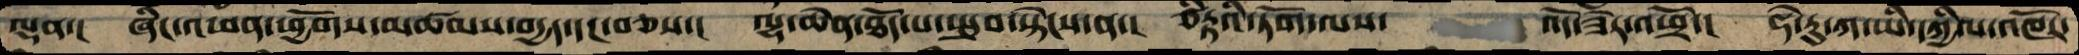ལྡན་།  ཞིང་འཕན་ཕྱོགས་མཚམས་བདྱད་དང་བཅས་།  ལྷ་ཆེན་ཐོད་པ་སྤུབ་སྟེངས་ན་།  ཙིཏྟའི་ཏོག་ལས་   འོད་ཟེར་འཕྲོ་།  ཧེ་རུ་ཀ་ཡི་དཀྱིལ་འཁོར་
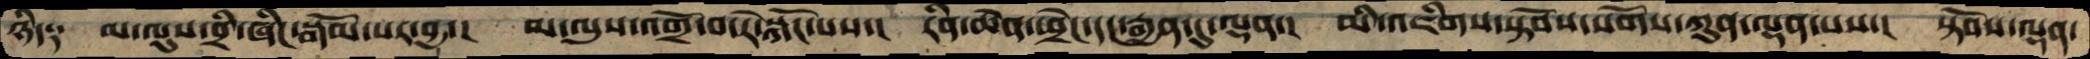ཉིད༑  མ་ལུས་བྲི་ཞིང་སྒོམ་པར་བྱ་།  མ་ལུས་འགྲོ་བ་རེ་སྐོང་པས་།  རིན་ཆེན་ཕྲེང་དང་རྒྱན་དུ་ལྡན་།  མི་འཇིགས་སྟོབས་སོགས་ཀུན་ལྡན་པས་།  སྟོབས་ལྡན་
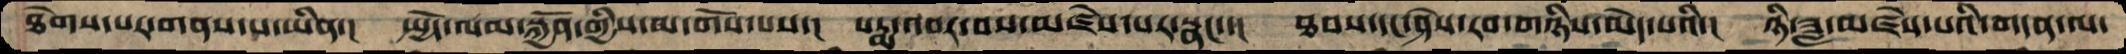ཐེགས་པར་གནས་པ་ཡིན་།  སྤྱོད་ལམ་སྐྱོན་གྱིས་མ་གོས་པས་།  པདྨ་འབར་བས་མཛེས་པར་སྣང་་།   ཐབས་དང་ཤེས་རབ་གཉིས་མེད་པའི་།  ཉི་ཟླ་མཛེས་པའི་གདན་ལ་
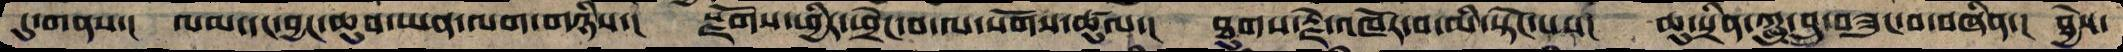དུ་གནས་།  ལམ་དང་བྱང་ཆུབ་ཡན་ལག་གཉིས་།   སྫོགས་ཕྱིར་ཕྲེང་བ་ལ་སོགས་ཚུལ་།  ཐུགས་རྗེ་འཁོར་བ་མི་སྟོང་པས།   ཆུ་སྲིན་ཀླུ་བྲུ་བཟུང་བ་བཞིན་།  ཐྱེས་
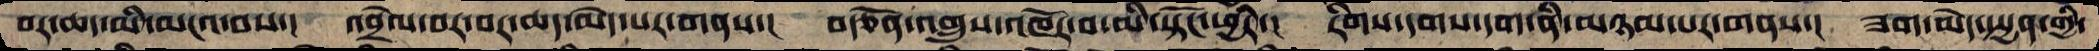བར་ཆད་མི་མངའ་བས་།  འབྲེལ་བར་བར་ཆད་མེད་པར་གནས་།   བརྩོན་འགྲུས་འཁོར་བ་མི་སྟོང་ཕྱིར་།  རིགས་དགས་དག་ནི་མཉམ་པར་གནས་།  ཟག་མེད་སྤྱན་གྱི་
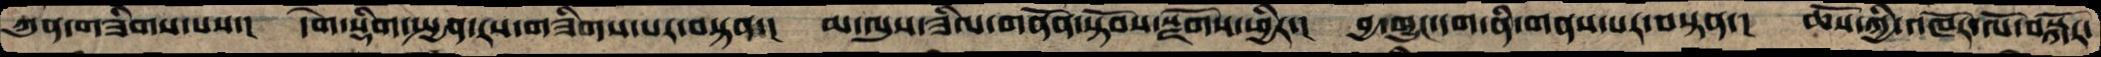ཀུན་གཟིགས་པས་།  དགེ་སྡིག་སྤྱན་རས་གཟིགས་པར་བསྟན་།   མ་ལུས་ཟིལ་གནོན་སྟོབས་སྫོགས་ཕྱིར་།  བྱ་ཁྱུང་དག་ནི་གནས་པར་བསྟན་།  ཆོས་ཀྱི་འཁོར་ལོ་བསྐོར་
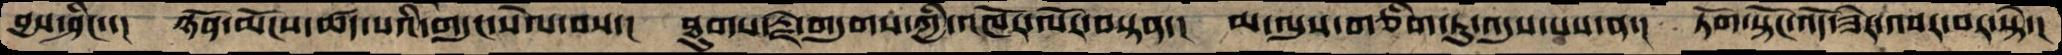བྱས་ཤིང་་།   ཉོན་མོངས་ཚད་པའི་གདུང་སེལ་བས་།  ཐུགས་རྗེ་གདུགས་ཀྱི་འཁོར་ལོར་བསྟན་།  མ་ལུས་གཅིག་ཏུ་འདུས་པས་ན་།  ཏོག་སྟོང་འོད་ཟེར་འབར་བར་སྟེ་།
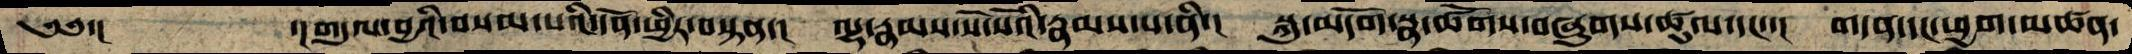༄༅་།      ་།གདུལ་བྱའི་བསམ་པའི་དོན་ཕྱིར་བསྟན་།  ལྷ་རྣམས་སོ་སོའི་རྣམས་པ་ནི་།   སྐུ་མདོག་སྣ་ཚོགས་བཞུགས་ཚུལ་དང་་།   གདན་དང་ཕྱག་མཚན་
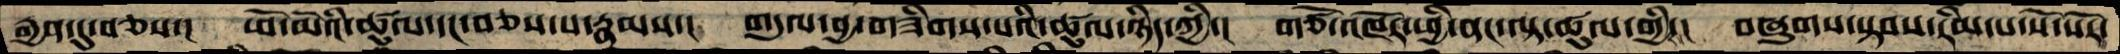རྒྱན་དུ་བཅས་།  ཕོ་མོའི་ཚུལ་དང་བཅས་པ་རྣམས་།   གདུལ་བྱ་གཟིགས་པའི་ཚུལ་ཉིད་ཀྱི་།  གཙོ་འཁོར་ཕྱི་ནང་ལྟ་ཚུལ་གྱི་།  བཞུགས་སྟབས་རིམ་པ་སོ་སོར་
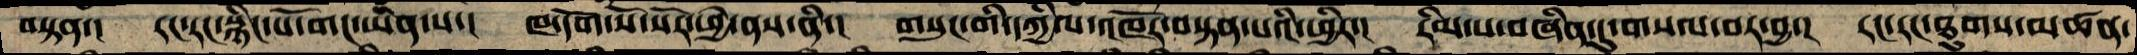བསྟན་།   རང་རང་སྙིང་པོ་གང་ཡིན་པ་།   ཁ་དོག་སོ་སོར་ཕྱེ་ནས་ནི་།  གསུང་གི་དཀྱིལ་འཁོར་བསྟན་པའི་ཕྱིར་།  རིམ་པ་བཞིན་དུ་གསལ་བར་བྱ་།  རང་རང་ཐུགས་མཚན་
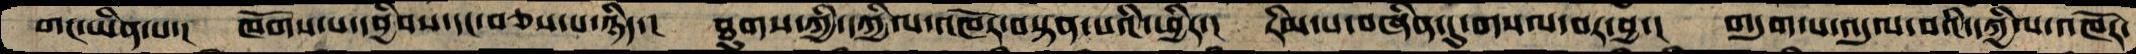གང་ཡིན་པ་།  ཁོགས་པ་དབྱིབས་དང་བཅས་པ་ཉིད་།  ཐུགས་ཀྱི་དཀྱིལ་འཁོར་བསྟན་པའི་ཕྱིར་།  རིམ་པ་བཞིན་དུ་གསལ་བར་བྱ་།  གདུག་པ་འདུལ་བའི་དཀྱིལ་འཁོར་
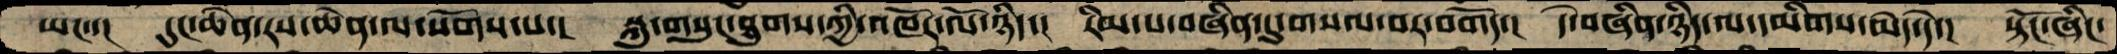ཡང་་།  དུང་ཆེན་རས་ཆེན་ལ་སོགས་པ་།  སྐུ་གསུང་ཐུགས་ཀྱི་འཁོར་ལོ་ཉིད་།  རིམ་པ་བཞིན་དུ་གསལ་བར་བགོད་།  དེ་བཞིན་ཉིད་ལ་དམིགས་མེད་དེ་།  སྟོང་ཞིང་
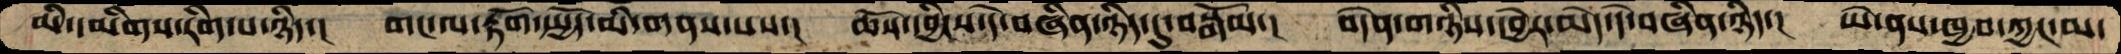མི་དམིགས་རིག་པ་ཉིད་།  གང་ལ་རྟོག་སྤྱོད་མི་གནས་པས་།  ཆོས་དབྱིངས་དེ་བཞིན་ཉིད་དུ་བསྒོམ་།  བདེན་གཉིས་དབྱེར་མེད་དེ་བཞིན་ཉིད་།  ཡེ་ནས་ཁྱབ་ཀྱང་མ་
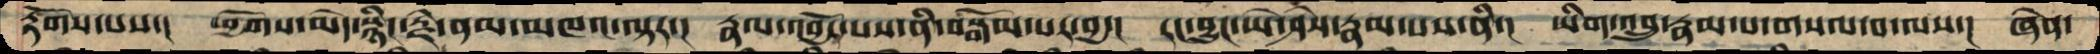རྟོགས་པས་།  ཕྱོགས་མེད་སྙིང་རྗེ་ནམ་མཁའ་ལྟར་།  རྣལ་འབྱོར་པས་ནི་བསྒོམ་པར་བྱ་།  རང་བྱུང་ཡེ་ཤེས་རྣམ་པས་ནི་།  ཡིག་འབྲུ་རྣམ་པ་གསལ་བ་ལས་།  ཞེན་
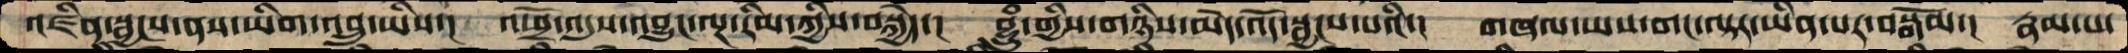འཛིན་སྦྱངས་ནས་ཡིག་འབྲུ་ཡིས་།  འཕྲོ་འདུས་འབྱུང་ལྔ་རིམ་ཀྱིས་བསྐྱེད་།  བྷྲུཾ་གྱིས་གཉིས་མེད་འོད་སྦྱངས་པའི་།  གཞལ་ཡས་གང་ལྟར་ཡིན་པར་བསྒོམ་།  རྣམ་པ་
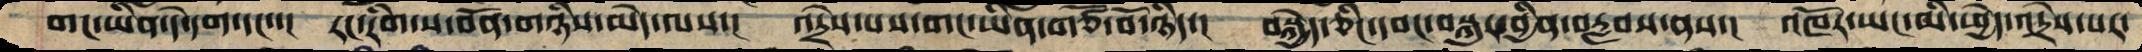གང་ཡིན་དེ་དག་དང་་།   རང་རིག་ས་བོན་གཉིས་མེད་ལས་།  འདྲེས་པས་གང་ཡིན་གཙོ་བོ་ཉིད་།  བསྐྱེད་ཅིང་དབང་བསྐུར་བྱིན་བརླབས་ནས་།  འཁོར་ཡང་མི་ཕྱེད་འདྲེས་པར་
